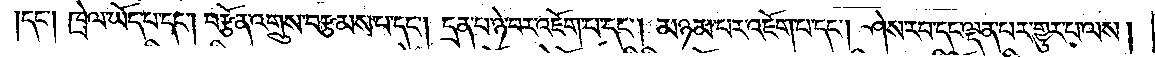དང༌། ཁྲེལ་ཡོད་པ་དང༌། བརྩོན་འགྲུས་བརྩམས་པ་དང༌། དྲན་པ་ཉེ་བར་འཇོག་པ་དང༌། མཉམ་པར་འཇོག་པ་དང༌། ཤེས་རབ་དང་ལྡན་པར་གྱུར་པ་ལས།
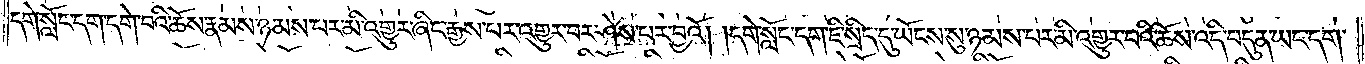དགེ་སློང་དག་དགེ་བའི་ཆོས་རྣམས་ཉམས་པར་མི་འགྱུར་ཞིང་རྒྱས་པར་འགྱུར་བར་ཤེས་པར་བྱའོ། །དགེ་སློང་དག་ཇི་སྲིད་དུ་ཡོངས་སུ་ཉམས་པར་མི་འགྱུར་བའི་ཆོས་འདི་བདུན་ཡང་དག་
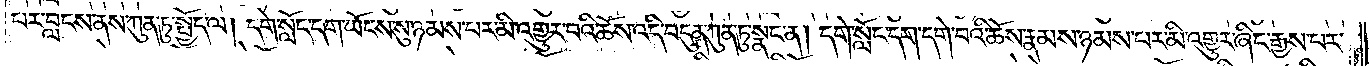པར་བླངས་ནས་ཀུན་ཏུ་སྤྱོད་ལ། དགེ་སློང་དག་ཡོངས་སུ་ཉམས་པར་མི་འགྱུར་བའི་ཆོས་འདི་བདུན་ཀུན་ཏུ་སྣང་ན། དགེ་སློང་དག་དགེ་བའི་ཆོས་རྣམས་ཉམས་པར་མི་འགྱུར་ཞིང་རྒྱས་པར་
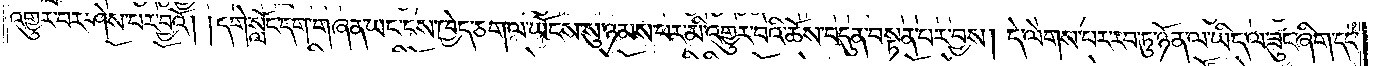འགྱུར་བར་ཤེས་པར་བྱའོ། །དགེ་སློང་དག་གཞན་ཡང་ངས་ཁྱེད་ཅག་ལ་ཡོངས་སུ་ཉམས་པར་མི་འགྱུར་བའི་ཆོས་བདུན་བསྟན་པར་བྱས། དེ་ལེགས་པར་རབ་ཏུ་ཉོན་ལ་ཡིད་ལ་ཟུང་ཞིག་དང་
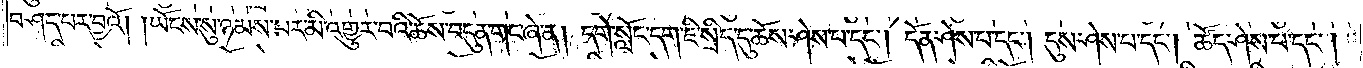བཤད་པར་བྱའོ། །ཡོངས་སུ་ཉམས་པར་མི་འགྱུར་བའི་ཆོས་བདུན་གང་ཞེ་ན། དགེ་སློང་དག་ཇི་སྲིད་དུ་ཆོས་ཤེས་པ་དང༌། དོན་ཤེས་པ་དང༌། དུས་ཤེས་པ་དང༌། ཚོད་ཤེས་པ་དང༌།
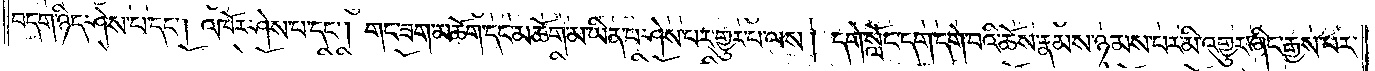བདག་ཉིད་ཤེས་པ་དང༌། འཁོར་ཤེས་པ་དང༌། གང་ཟག་མཆོག་དང་མཆོག་མ་ཡིན་པ་ཤེས་པར་གྱུར་པ་ལས། དགེ་སློང་དག་དགེ་བའི་ཆོས་རྣམས་ཉམས་པར་མི་འགྱུར་ཞིང་རྒྱས་པར་
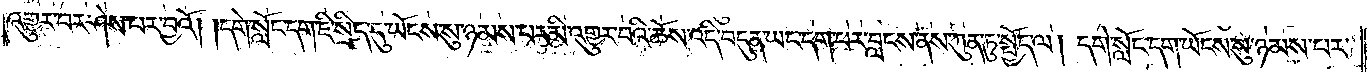འགྱུར་བར་ཤེས་པར་བྱའོ། །དགེ་སློང་དག་ཇི་སྲིད་དུ་ཡོངས་སུ་ཉམས་པར་མི་འགྱུར་བའི་ཆོས་འདི་བདུན་ཡང་དག་པར་བླངས་ནས་ཀུན་ཏུ་སྤྱོད་ལ། དགེ་སློང་དག་ཡོངས་སུ་ཉམས་པར་
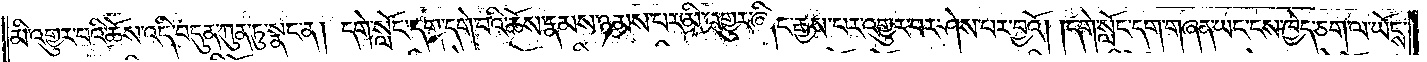མི་འགྱུར་བའི་ཆོས་འདི་བདུན་ཀུན་ཏུ་སྣང་ན། དགེ་སློང་དག་དགེ་བའི་ཆོས་རྣམས་ཉམས་པར་མི་འགྱུར་ཞིང་རྒྱས་པར་འགྱུར་བར་ཤེས་པར་བྱའོ། །དགེ་སློང་དག་གཞན་ཡང་ངས་ཁྱེད་ཅག་ལ་ཡོངས་
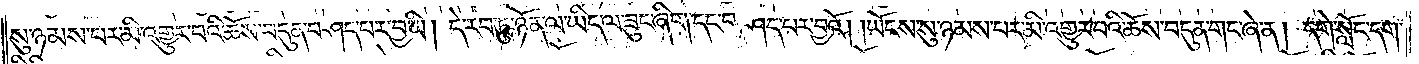སུ་ཉམས་པར་མི་འགྱུར་བའི་ཆོས་བདུན་བཤད་པར་བྱ་ཡི། དེ་རབ་ཏུ་ཉོན་ལ་ཡིད་ལ་ཟུང་ཞིག་དང་བཤད་པར་བྱའོ། །ཡོངས་སུ་ཉམས་པར་མི་འགྱུར་བའི་ཆོས་བདུན་གང་ཞེ་ན། དགེ་སློང་དག་
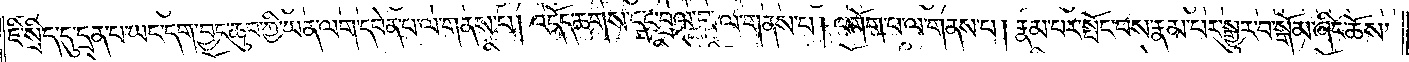ཇི་སྲིད་དུ་དྲན་པ་ཡང་དག་བྱང་ཆུབ་ཀྱི་ཡན་ལག་དབེན་པ་ལ་གནས་པ། འདོད་ཆགས་དང་བྲལ་བ་ལ་གནས་པ། འགོག་པ་ལ་གནས་པ། རྣམ་པར་སྤོང་བས་རྣམ་པར་སྒྱུར་བ་སྒོམ་ཞིང་ཆོས་
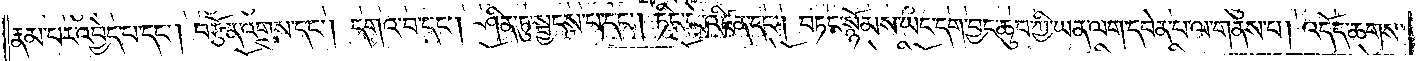རྣམ་པར་འབྱེད་པ་དང༌། བརྩོན་འགྲུས་དང༌། དགའ་བ་དང༌། ཤིན་ཏུ་སྦྱངས་པ་དང༌། ཏིང་ངེ་འཛིན་དང༌། བཏང་སྙོམས་ཡང་དག་བྱང་ཆུབ་ཀྱི་ཡན་ལག་དབེན་པ་ལ་གནས་པ། འདོད་ཆགས་
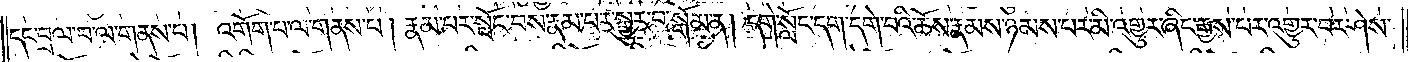དང་བྲལ་བ་ལ་གནས་པ། འགོག་པ་ལ་གནས་པ། རྣམ་པར་སྤོང་བས་རྣམ་པར་སྒྱུར་བསྒོམ་ན། དགེ་སློང་དག་དགེ་བའི་ཆོས་རྣམས་ཉམས་པར་མི་འགྱུར་ཞིང་རྒྱས་པར་འགྱུར་བར་ཤེས་
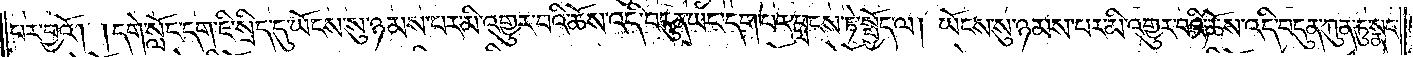པར་བྱའོ། །དགེ་སློང་དག་ཇི་སྲིད་དུ་ཡོངས་སུ་ཉམས་པར་མི་འགྱུར་བའི་ཆོས་འདི་བདུན་ཡང་དག་པར་བླངས་ཏེ་སྤྱོད་ལ། ཡོངས་སུ་ཉམས་པར་མི་འགྱུར་བའི་ཆོས་འདི་བདུན་ཀུན་ཏུ་སྣང་
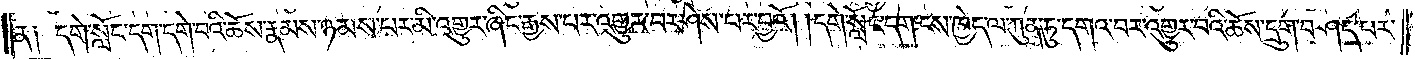ན༑ དགེ་སློང་དག་དགེ་བའི་ཆོས་རྣམས་ཉམས་པར་མི་འགྱུར་ཞིང་རྒྱས་པར་འགྱུར་བར་ཤེས་པར་བྱའོ། །དགེ་སློང་དག་ངས་ཁྱེད་ཅག་ཀུན་ཏུ་དགའ་བར་འགྱུར་བའི་ཆོས་དྲུག་བཤད་པར་
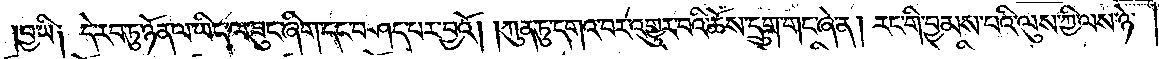བྱ་ཡི༑ དེ་རབ་ཏུ་ཉོན་ལ་ཡིད་ལ་ཟུང་ཞིག་དང་བཤད་པར་བྱའོ། །ཀུན་ཏུ་དགའ་བར་འགྱུར་བའི་ཆོས་དྲུག་གང་ཞེ་ན། རང་གི་བྱམས་པའི་ལུས་ཀྱི་ལས་ཉེ་
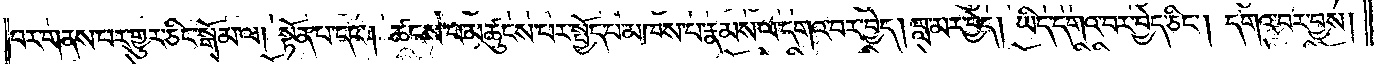བར་གནས་པར་གྱུར་ཅིང་སྒོམ་ལ། སྟོན་པ་དང༌། ཚངས་པ་མཚུངས་པར་སྤྱོད་པ་མཁས་པ་རྣམས་ལ་དགའ་བར་བྱེད། བླ་མར་བྱེད། ཡིད་དགའ་བར་བྱེད་ཅིང༌། དགའ་བར་བྱས།
